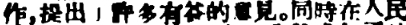作，提出了許多有益的意見。同時在人民
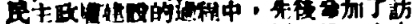民主政權建設的過程中 ，先後參加了訪
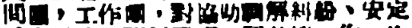問團，工作團，對協助調解糾紛、安定
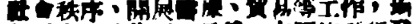社會秩序、開展醫療、貿易等工作，均
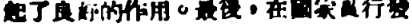起了良好的作用。最後，在國家實行發
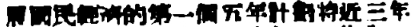展國民經濟的第一個五年計劃將近三年
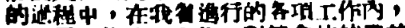的過程中，在我省進行的各項工作內，
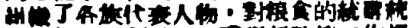組織了各族代表人物，對粮食的統購統
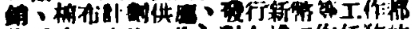銷、棉布計劃供應、發行新幣等工作都
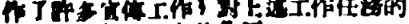作了許多宣傳工作，對上述工作任務的
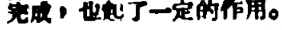完成，也起了一定的作用。
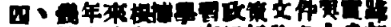四、幾年來根據學習政策文件與實踐
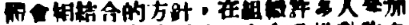體會相結合的方針，在組織許多人參加
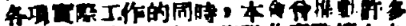各項實際工作的同時，本會曾推動許多
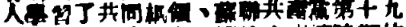人學習了共同綱領、蘇聯共產黨第十九
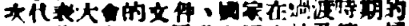次代表大會的文件、國家在過渡時期的
